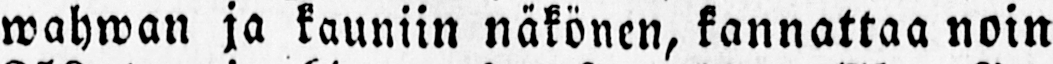wahwan ja kauniin näkönen, kannattaa noin
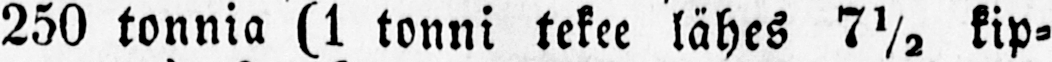250 tonnia (1 tonni tekee lähes 7 ½ kip-
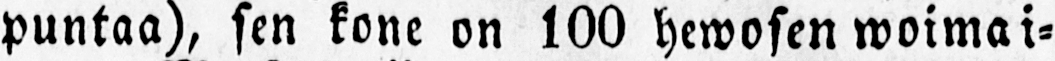puntaa), sen kone on 100 hewosen woimai-
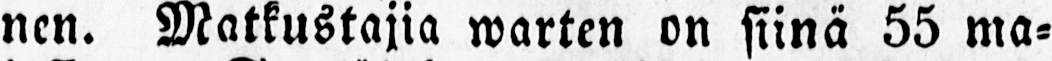nen. Matkustajia warten on siinä 55 ma-
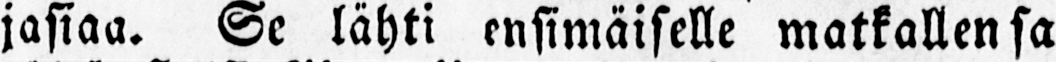jasiaa. Se lähti ensimäiselle matkallensa
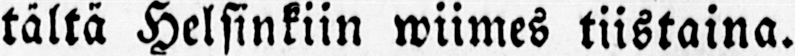tältä Helsinkiin wiimes tiistaina.
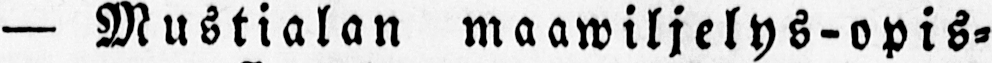— Mustialan maawiljelys-opis-
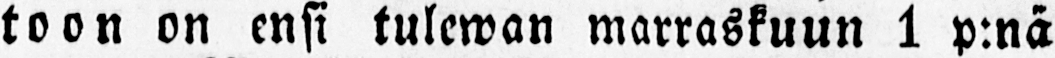toon on ensi tulewan marraskuun 1 p.nä
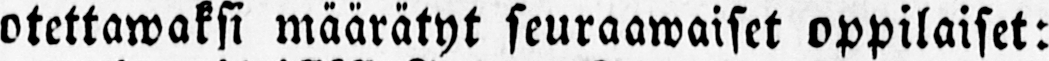olettawaksi määrätyt seuraawaiset oppilaiset:
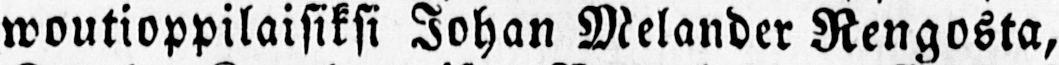woutioppilaisiksi Johan Melander Rengosta,
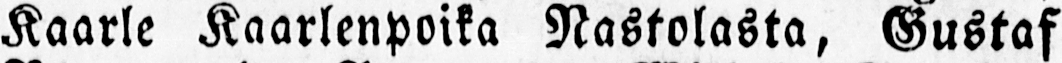Kaarle Kaarlenpoika Nastolasta, Gustaf
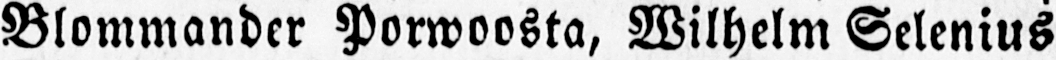Blommander Porwoosta, Wilhelm Selenius
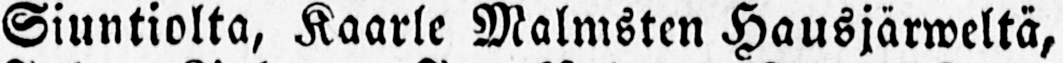Siuntiolta, Kaarle Malmsten Hausjärweltä,
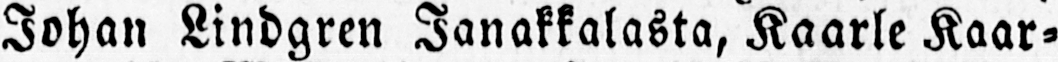Johan Lindgren Janakkalasta, Kaarle Kaar-
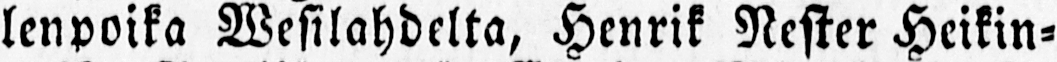lenpoika Wesilahdelta, Henrik Nester Heikin-
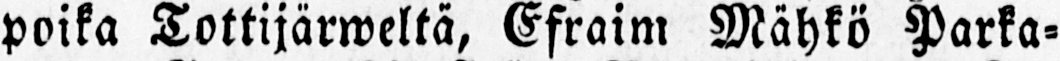poika Lottijärweltä, Efraim Mähkö Parka-
